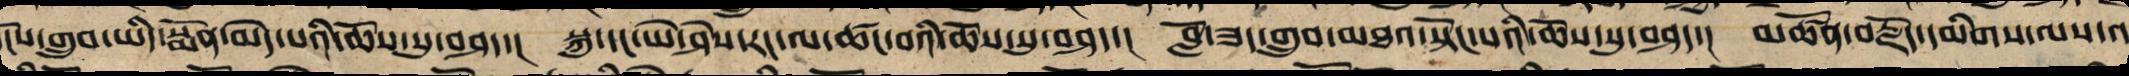དངོས་གྲུབ་ཡིད་སྨོན་མེད་པའི་ཆོས་སུ་བཤད་། སྐུ་དང་ཡེ་ཤེས་རང་ལ་ཚང་བའི་ཆོས་སུ་བཤད་། བློ་ཟད་གྲུབ་མཐའ་སྟོང་པའི་ཆོས་སུ་བཤད་། མཚོན་བརྗོད་དམིགས་ལས་འ
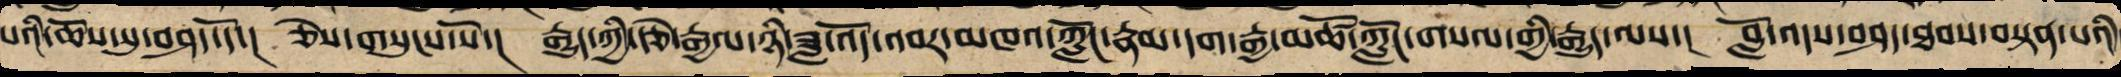པའི་ཆོས་སུ་བཤད་དོ་། ཅེས་གསུངས་སོ་། རྒྱུད་ཀྱི་རྩེ་རྒྱལ་ཉི་ཟླ་འོད་འབར་མཁའ་ཀློང་རྣམ་དག་རྒྱ་མཚོ་ཀློང་གསལ་གྱི་རྒྱུད་ལས་། བློ་འདས་བཤད་ཐབས་བསྟན་པའི་
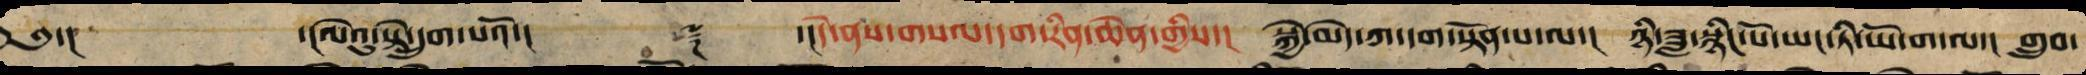༄༅་།  ་།ལེའུ་སྟེ་དྲུག་པའོ་།།  ༈ ་།།དེ་ནས་གསལ་དག་རིན་ཆེན་གྱིས་། སྐྱེ་མེད་ཀ་དག་སྟོན་པ་ལ་། ཉི་ཟླའི་སྙིང་པོ་ཡང་ཏི་ཡོ་ག་ལ་། གྲུབ་
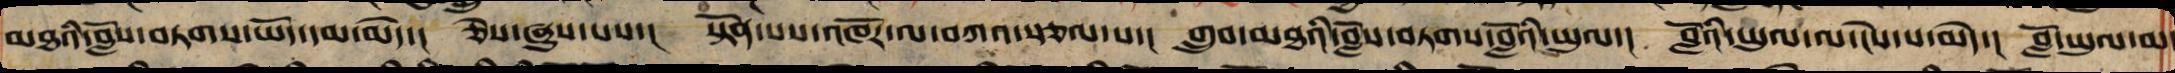མཐའི་བློས་བཏགས་ཡོད་དམ་མེད་། ཅེས་ཞུས་པས་། སྟོན་པས་འཁོར་ལ་བཀའ་སྩལ་པ་། གྲུབ་མཐའི་བློས་བཏགས་བློའིཡུལ་། བློའི་ཡུལ་ལ་ངེས་པ་མེད་། བློ་ཡུལ་མ་
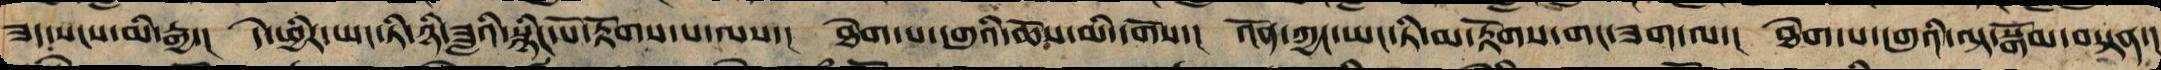ཟད་སངས་མི་རྒྱ་། དེ་ཕྱིར་ཡང་ཏི་ཉི་ཟླའི་སྙིང་པོའི་རྟོག་པ་ལས་། ཐེག་པ་དགུ་ཡི་ཆོས་མི་དགོས་། འོན་ཀྱང་ཡང་ཏི་མ་རྟོགས་གང་ཟག་ལ་། ཐེག་པ་དགུ་ཡི་ལྟ་སྒོམ་བསྟན་།
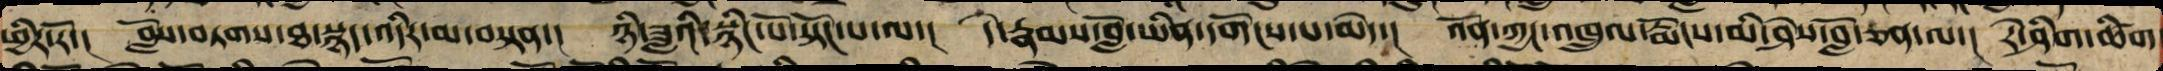ཕྱིར་རོ་། བློས་བཏགས་ཐ་སྙད་འདིར་མ་བསྟན་། ཉི་ཟླའི་སྙིང་པོ་སྟོང་པ་ལ། དེ་རྣམས་བློ་ཡིན་དགོས་པ་མེད་། འོན་ཀྱང་འཁྲུལ་རྨོངས་མི་ཤེས་བློ་ཅན་ལ་། རེ་ཤིག་ཚིག་
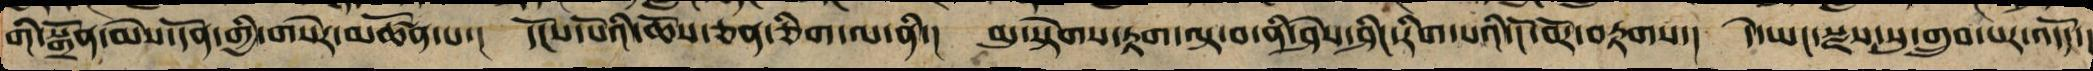གི་སྒྲོན་མེས་དོན་གྱི་དཔེར་མཚོན་པ་། དངོས་པོའི་ཆོས་ཅན་གཅིག་ལ་ནི་། མུ་སྟེགས་རྟག་ལྟ་བ་ནི་ཤེས་ཤིང་རིག་པའི་ངོ་བོར་བརྟགས་། དེ་ཡང་སྫས་སུ་གྲུབ་པར་འདོད་།
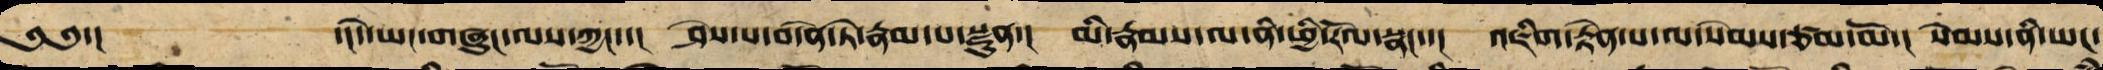༄༅་། དེ་ཡང་གཞུང་ལས་ཀྱང་་། ཤེས་པ་བདེན་ཏེ་རྣམ་པ་སྫུན་། མི་རྣམས་ལ་ནི་ཕྱི་རོལ་སྣང་་། འཇིག་རྟེན་པ་ལ་སེམས་ཙམ་མོ་། སེམས་ནི་ཡང་
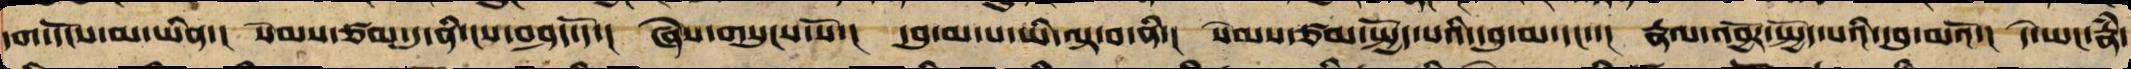དག་དངོས་མ་ཡིན་། སེམས་ཙམ་དུ་ནི་ངས་བཤད་དོ་། ཞེས་གསུངས་སོ་། དབུ་མ་པ་ཡི་ལྟ་བ་ནི་། སེམས་ཙམ་སྤྱོད་པའི་དབུ་མ་དང་་། རྣལ་འབྱོར་སྤྱོད་པའི་དབུ་མའོ་། དེ་ཡང་རྣཾ་
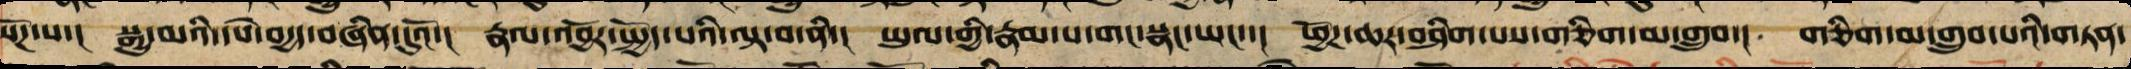སོཌ་པ་། སྒྱུ་མའི་དཔེ་བདྱད་བཞིན་དུའོ་། རྣལ་འབྱོར་སྤྱོད་པའི་ལྟ་བ་ནི་། ཡུལ་གྱི་རྣམ་པ་གང་སྣང་ཡང་་། ཕྱོགས་ཆར་བཤིག་པས་གཅིག་མ་གྲུབ་། གཅིག་མ་གྲུབ་པའི་གཏན་
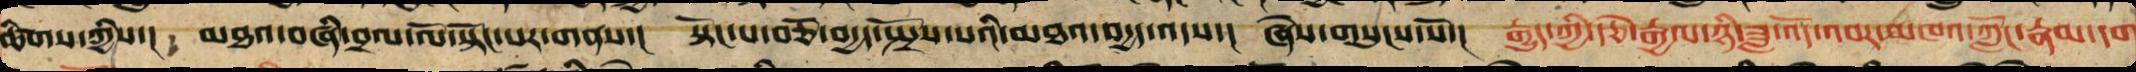ཚིགས་ཀྱིས་། མཐའ་བཞི་བྲལ་ལོ་སྟོང་པར་གནས་། སྟོང་པ་བཅོ་བདྱད་སྤྲོས་པའི་མཐའ་བརྒྱད་འདས་། ཞེས་གསུངས་སོ་། རྒྱུད་ཀྱི་རྩེ་རྒྱལ་ཉི་ཟླ་འོད་འབར་མཁའ་ཀློང་རྣམ་དག
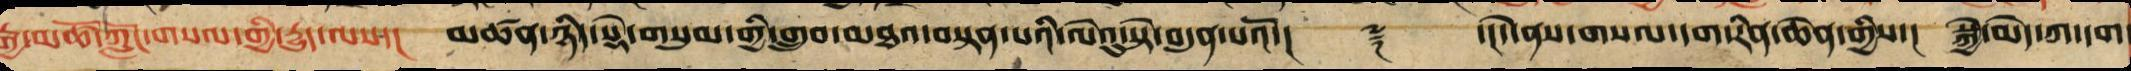རྒྱ་མཚོ་ཀློང་གསལ་གྱི་རྒྱུད་ལས་། མཚན་ཉིད་སྡེ་གསུམ་གྱི་གྲུབ་མཐའ་བསྟན་པའི་ལེའུ་སྟེ་བདུན་པའོ་།། ༈ ་།།དེ་ནས་གསལ་དག་རིན་ཆེན་གྱིས་། སྐྱེ་མེད་ཀ་དག
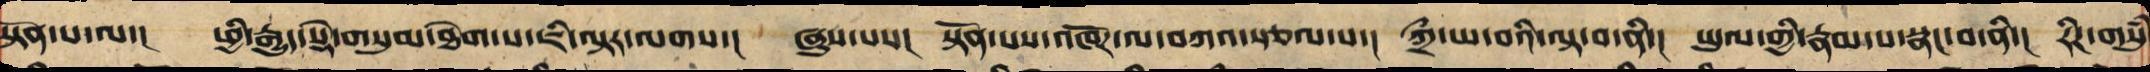སྟོན་པ་ལ་། ཕྱི་རྒྱུད་སྡེ་གསུམ་ཐེག་པ་ཇི་ལྟར་ལགས་། ཞུས་པས། སྟོན་པས་འཁོར་ལ་བཀའ་སྩལ་པ་། ཀྲྀ་ཡ་བའི་ལྟ་བ་ནི་། ཡུལ་གྱི་རྣམ་པ་སྣང་བ་ནི་། རིགས་གསུཾ་
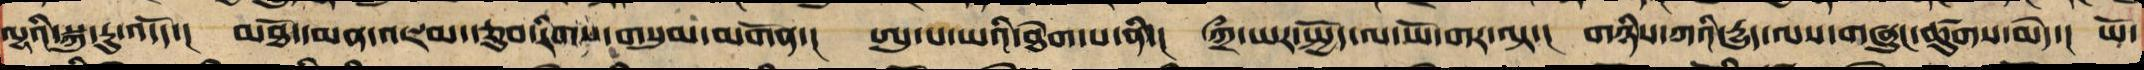ལྷའི་སྐུ་རུ་འདོད་། མཐོ་དམན་འཇམ་རྩུབ་རིགས་གསུམ་མགོན་། ཨུ་པ་ཡའི་ཐེག་པ་ནི་། ཀྲྀ་ཡར་སྤྱོད་ལ་ཡོ་གར་བལྟ་། གཉིས་ཀའི་རྒྱུད་ལས་གཞུང་ཚུགས་མེད་། ཡོ་
